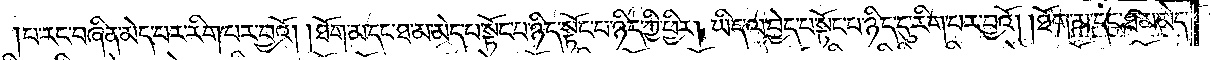པ་རང་བཞིན་མེད་པར་རིག་པར་བྱའོ། །ཐོག་མ་དང་ཐ་མ་མེད་པ་སྟོང་པ་ཉིད་སྟོང་པ་ཉིད་ཀྱི་ཕྱིར། ཡིད་ལ་བྱེད་པ་སྟོང་པ་ཉིད་དུ་རིག་པར་བྱའོ། །ཐོག་མ་དང་ཐ་མ་མེད་
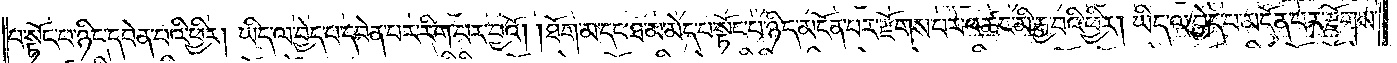པ་སྟོང་པ་ཉིད་དབེན་པའི་ཕྱིར། ཡིད་ལ་བྱེད་པ་དབེན་པར་རིག་པར་བྱའོ། །ཐོག་མ་དང་ཐ་མ་མེད་པ་སྟོང་པ་ཉིད་མངོན་པར་རྫོགས་པར་འཚང་མི་རྒྱ་བའི་ཕྱིར། ཡིད་ལ་བྱེད་པ་མངོན་པར་རྫོགས་པར་
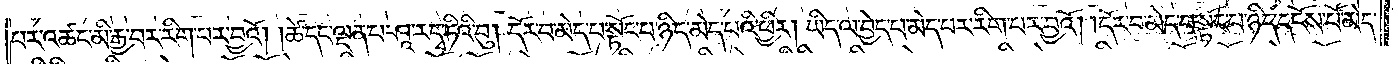པར་འཚང་མི་རྒྱ་བར་རིག་པར་བྱའོ། །ཚེ་དང་ལྡན་པ་ཤཱ་ར་དྭ་ཏིའི་བུ། དོར་བ་མེད་པ་སྟོང་པ་ཉིད་མེད་པའི་ཕྱིར། ཡིད་ལ་བྱེད་པ་མེད་པར་རིག་པར་བྱའོ། །དོར་བ་མེད་པ་སྟོང་པ་ཉིད་དངོས་པོ་མེད་
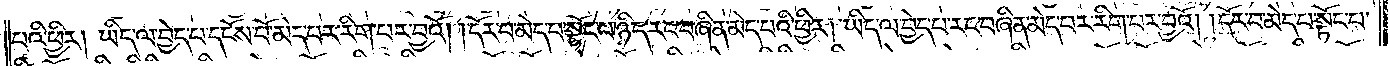པའི་ཕྱིར། ཡིད་ལ་བྱེད་པ་དངོས་པོ་མེད་པར་རིག་པར་བྱའོ། །དོར་བ་མེད་པ་སྟོང་པ་ཉིད་རང་བཞིན་མེད་པའི་ཕྱིར། ཡིད་ལ་བྱེད་པ་རང་བཞིན་མེད་པར་རིག་པར་བྱའོ། །དོར་བ་མེད་པ་སྟོང་པ་
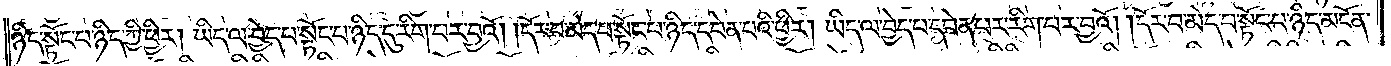ཉིད་སྟོང་པ་ཉིད་ཀྱི་ཕྱིར། ཡིད་ལ་བྱེད་པ་སྟོང་པ་ཉིད་དུ་རིག་པར་བྱའོ། །དོར་བ་མེད་པ་སྟོང་པ་ཉིད་དབེན་པའི་ཕྱིར། ཡིད་ལ་བྱེད་པ་དབེན་པར་རིག་པར་བྱའོ། །དོར་བ་མེད་པ་སྟོང་པ་ཉིད་མངོན་
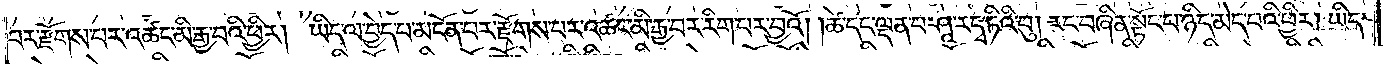པར་རྫོགས་པར་འཚང་མི་རྒྱ་བའི་ཕྱིར། ཡིད་ལ་བྱེད་པ་མངོན་པར་རྫོགས་པར་འཚང་མི་རྒྱ་བར་རིག་པར་བྱའོ། །ཚེ་དང་ལྡན་པ་ཤཱ་ར་དྭ་ཏིའི་བུ། རང་བཞིན་སྟོང་པ་ཉིད་མེད་པའི་ཕྱིར། ཡིད་
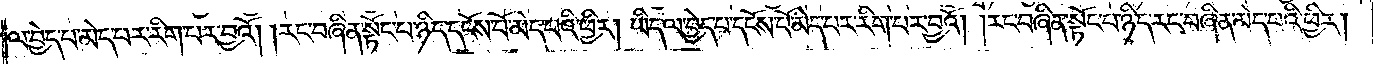ལ་བྱེད་པ་མེད་པར་རིག་པར་བྱའོ། །རང་བཞིན་སྟོང་པ་ཉིད་དངོས་པོ་མེད་པའི་ཕྱིར། ཡིད་ལ་བྱེད་པ་དངོས་པོ་མེད་པར་རིག་པར་བྱའོ། །རང་བཞིན་སྟོང་པ་ཉིད་རང་བཞིན་མེད་པའི་ཕྱིར།
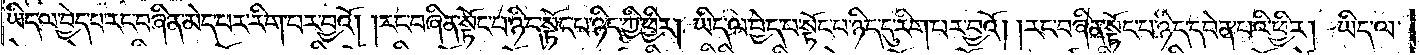ཡིད་ལ་བྱེད་པ་རང་བཞིན་མེད་པར་རིག་པར་བྱའོ། །རང་བཞིན་སྟོང་པ་ཉིད་སྟོང་པ་ཉིད་ཀྱི་ཕྱིར། ཡིད་ལ་བྱེད་པ་སྟོང་པ་ཉིད་དུ་རིག་པར་བྱའོ། །རང་བཞིན་སྟོང་པ་ཉིད་དབེན་པའི་ཕྱིར། ཡིད་ལ་
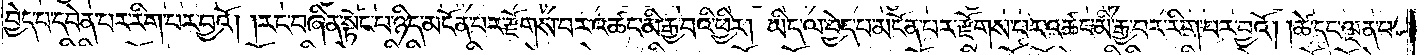བྱེད་པ་དབེན་པར་རིག་པར་བྱའོ། །རང་བཞིན་སྟོང་པ་ཉིད་མངོན་པར་རྫོགས་པར་འཚང་མི་རྒྱ་བའི་ཕྱིར། ཡིད་ལ་བྱེད་པ་མངོན་པར་རྫོགས་པར་འཚང་མི་རྒྱ་བར་རིག་པར་བྱའོ། །ཚེ་དང་ལྡན་པ་
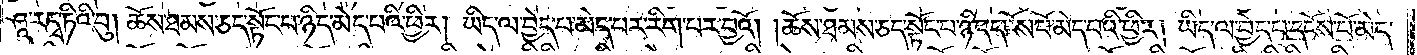ཤཱ་ར་དྭ་ཏིའི་བུ། ཆོས་ཐམས་ཅད་སྟོང་པ་ཉིད་མེད་པའི་ཕྱིར། ཡིད་ལ་བྱེད་པ་མེད་པར་རིག་པར་བྱའོ། །ཆོས་ཐམས་ཅད་སྟོང་པ་ཉིད་དངོས་པོ་མེད་པའི་ཕྱིར། ཡིད་ལ་བྱེད་པ་དངོས་པོ་མེད་
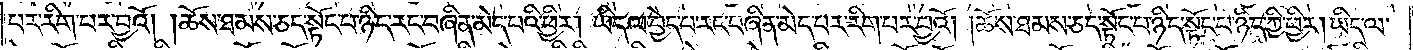པར་རིག་པར་བྱའོ། །ཆོས་ཐམས་ཅད་སྟོང་པ་ཉིད་རང་བཞིན་མེད་པའི་ཕྱིར། ཡིད་ལ་བྱེད་པ་རང་བཞིན་མེད་པར་རིག་པར་བྱའོ། །ཆོས་ཐམས་ཅད་སྟོང་པ་ཉིད་སྟོང་པ་ཉིད་ཀྱི་ཕྱིར། ཡིད་ལ་
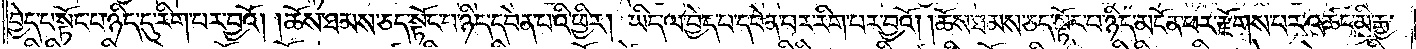བྱེད་པ་སྟོང་པ་ཉིད་དུ་རིག་པར་བྱའོ། །ཆོས་ཐམས་ཅད་སྟོང་པ་ཉིད་དབེན་པའི་ཕྱིར། ཡིད་ལ་བྱེད་པ་དབེན་པར་རིག་པར་བྱའོ། །ཆོས་ཐམས་ཅད་སྟོང་པ་ཉིད་མངོན་པར་རྫོགས་པར་འཚང་མི་རྒྱ་
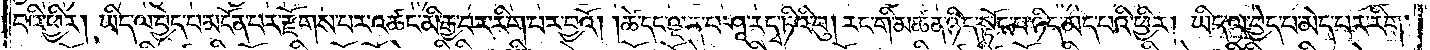བའི་ཕྱིར། ཡིད་ལ་བྱེད་པ་མངོན་པར་རྫོགས་པར་འཚང་མི་རྒྱ་བར་རིག་པར་བྱའོ། །ཚེ་དང་ལྡན་པ་ཤཱ་ར་དྭ་ཏིའི་བུ། རང་གི་མཚན་ཉིད་སྟོང་པ་ཉིད་མེད་པའི་ཕྱིར། ཡིད་ལ་བྱེད་པ་མེད་པར་རིག་
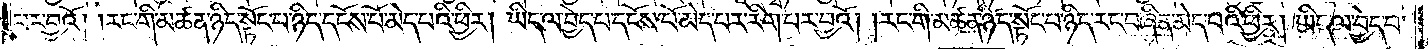པར་བྱའོ། །རང་གི་མཚན་ཉིད་སྟོང་པ་ཉིད་དངོས་པོ་མེད་པའི་ཕྱིར། ཡིད་ལ་བྱེད་པ་དངོས་པོ་མེད་པར་རིག་པར་བྱའོ། །རང་གི་མཚན་ཉིད་སྟོང་པ་ཉིད་རང་བཞིན་མེད་པའི་ཕྱིར། ཡིད་ལ་བྱེད་པ་
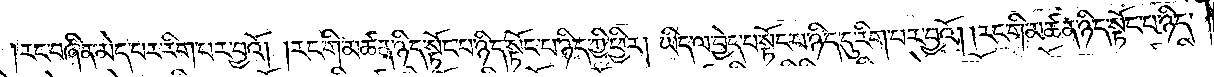རང་བཞིན་མེད་པར་རིག་པར་བྱའོ། །རང་གི་མཚན་ཉིད་སྟོང་པ་ཉིད་སྟོང་པ་ཉིད་ཀྱི་ཕྱིར། ཡིད་ལ་བྱེད་པ་སྟོང་པ་ཉིད་དུ་རིག་པར་བྱའོ། །རང་གི་མཚན་ཉིད་སྟོང་པ་ཉིད་
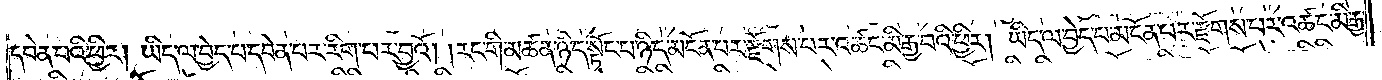དབེན་པའི་ཕྱིར། ཡིད་ལ་བྱེད་པ་དབེན་པར་རིག་པར་བྱའོ། །རང་གི་མཚན་ཉིད་སྟོང་པ་ཉིད་མངོན་པར་རྫོགས་པར་འཚང་མི་རྒྱ་བའི་ཕྱིར། ཡིད་ལ་བྱེད་པ་མངོན་པར་རྫོགས་པར་འཚང་མི་རྒྱ་
